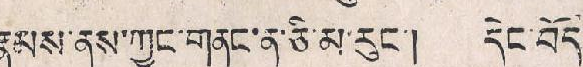རྣམས་ནས་ཀྱང་གནང་ན་ཅི་མ་རུང་། དེང་བོད་
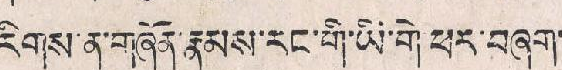རིགས་ན་གཞོན་རྣམས་རང་གི་ཡི་གེ་ཕར་བཞག་
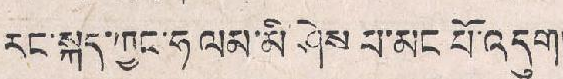རང་སྐད་ཀྱང་ཧ་ལམ་མི ཤེས་པ་མང་པོ་འདུག།
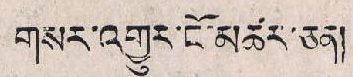གསར་འགྱུར་ངོ་མཚར་ཅན།
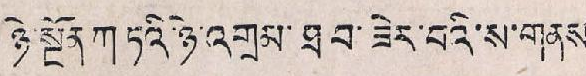ཉེ་སྔོན་ཀ ཏའི་ཉེ་འགྲམ་ཐབ་ཟེར་བའི་ས་གནས་
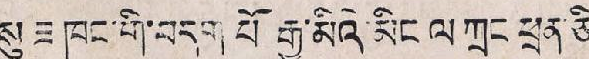སུ ཟ ཁང་གི་བདག་པོ རྒྱ་མིའི་མིང་ལ་ཀྲང ཕྲན་ཅི་
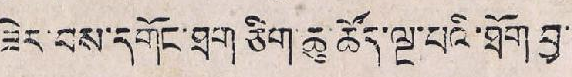ཟེར་བས་དགོང་ཐག་ཅིག་ཆུ་ཚོད་ལྔ་པའི་ཐོག་བྱ་
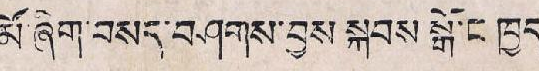མོ་ཞིག་བསད་བཤགས་བྱས སྐབས་སྒོ་ང ཁྱད་
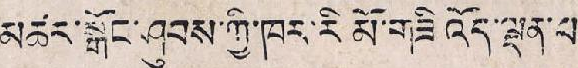མཚར་སྒོང་ཤུབས་ཀྱི་ཁར་རི མོ་གཟི་ འོད་ལྡན་པ་
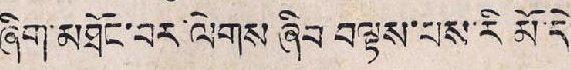ཞིག་མཐོང་བར་ལེགས ཞིབ བལྟས་པས་རི མོ་དེ་
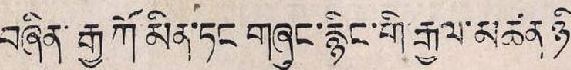བཞིན་རྒྱ ཀོ་མིན་ཏང་གཞུང་རྙིང་གི་རྒྱལ་མཚན་ཉི་
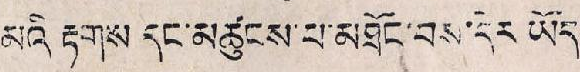མའི་རྟགས དང་མཚུངས་པ་མཐོང་བས་དེར ཡོད་
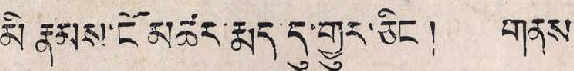མི་རྣམས་ངོ་མཚར་རྨད་དུ་གྱུར་ཅིང ། གནས་
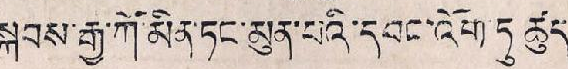སྐབས་རྒྱ་ཀོ་མིན་ཏང་མུན་པའི་དབང་འོག་ཏུ་ཚུད་
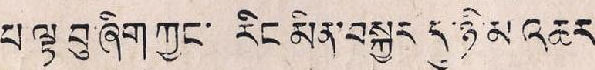པ་ལྟ་བུ་ཞིག་ཀྱང་ རིང་མིན་བསྐྱར དུ་ཉི་མ འཆར་
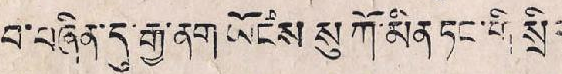བ་བཞིན་དུ་རྒྱ་ནག ཡོངས་སུ་ཀོ་མིན་ཏང་གི སྲིད་
